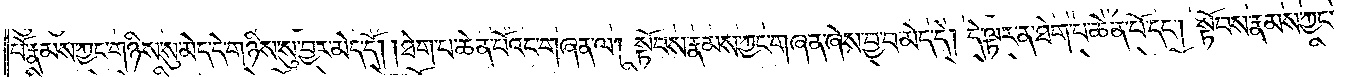པོ་རྣམས་ཀྱང་གཉིས་སུ་མེད་དེ་གཉིས་སུ་བྱར་མེད་དོ། །ཐེག་པ་ཆེན་པོའང་གཞན་ལ། སྟོབས་རྣམས་ཀྱང་གཞན་ཞེས་བྱ་བ་མེད་དེ། དེ་ལྟར་ན་ཐེག་པ་ཆེན་པོ་དང༌། སྟོབས་རྣམས་ཀྱང་
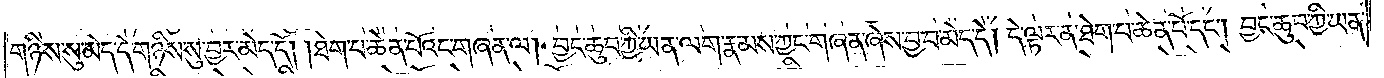གཉིས་སུ་མེད་དེ་གཉིས་སུ་བྱར་མེད་དོ། །ཐེག་པ་ཆེན་པོའང་གཞན་ལ། བྱང་ཆུབ་ཀྱི་ཡན་ལག་རྣམས་ཀྱང་གཞན་ཞེས་བྱ་བ་མེད་དེ། དེ་ལྟར་ན་ཐེག་པ་ཆེན་པོ་དང༌། བྱང་ཆུབ་ཀྱི་ཡན་
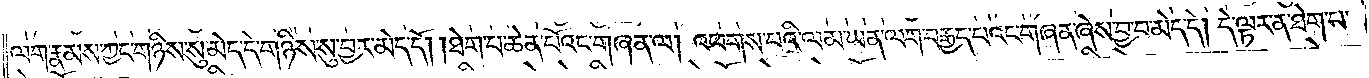ལག་རྣམས་ཀྱང་གཉིས་སུ་མེད་དེ་གཉིས་སུ་བྱར་མེད་དོ། །ཐེག་པ་ཆེན་པོའང་གཞན་ལ། འཕགས་པའི་ལམ་ཡན་ལག་བརྒྱད་པའང་གཞན་ཞེས་བྱ་བ་མེད་དེ། དེ་ལྟར་ན་ཐེག་པ་
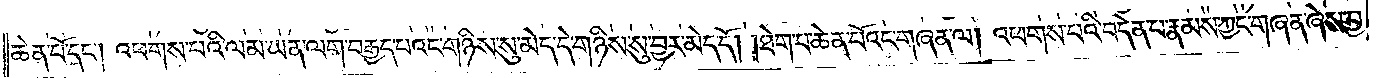ཆེན་པོ་དང༌། འཕགས་པའི་ལམ་ཡན་ལག་བརྒྱད་པའང་གཉིས་སུ་མེད་དེ་གཉིས་སུ་བྱར་མེད་དོ། །ཐེག་པ་ཆེན་པོའང་གཞན་ལ། འཕགས་པའི་བདེན་པ་རྣམས་ཀྱང་གཞན་ཞེས་བྱ་
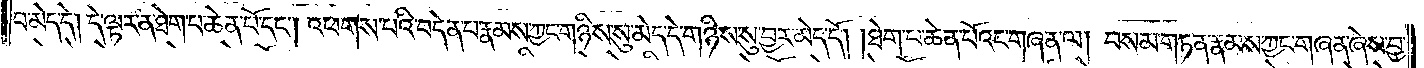བ་མེད་དེ། དེ་ལྟར་ན་ཐེག་པ་ཆེན་པོ་དང༌། འཕགས་པའི་བདེན་པ་རྣམས་ཀྱང་གཉིས་སུ་མེད་དེ་གཉིས་སུ་བྱར་མེད་དོ། །ཐེག་པ་ཆེན་པོའང་གཞན་ལ། བསམ་གཏན་རྣམས་ཀྱང་གཞན་ཞེས་བྱ་
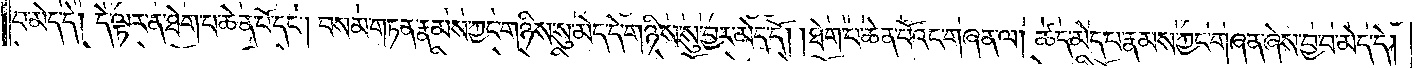བ་མེད་དེ། དེ་ལྟར་ན་ཐེག་པ་ཆེན་པོ་དང༌། བསམ་གཏན་རྣམས་ཀྱང་གཉིས་སུ་མེད་དེ་གཉིས་སུ་བྱར་མེད་དོ། །ཐེག་པ་ཆེན་པོའང་གཞན་ལ། ཚད་མེད་པ་རྣམས་ཀྱང་གཞན་ཞེས་བྱ་བ་མེད་དེ།
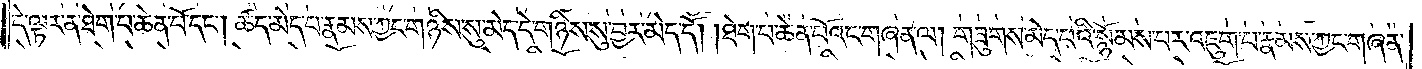དེ་ལྟར་ན་ཐེག་པ་ཆེན་པོ་དང༌། ཚད་མེད་པ་རྣམས་ཀྱང་གཉིས་སུ་མེད་དེ་གཉིས་སུ་བྱར་མེད་དོ། །ཐེག་པ་ཆེན་པོའང་གཞན་ལ། གཟུགས་མེད་པའི་སྙོམས་པར་འཇུག་པ་རྣམས་ཀྱང་གཞན་
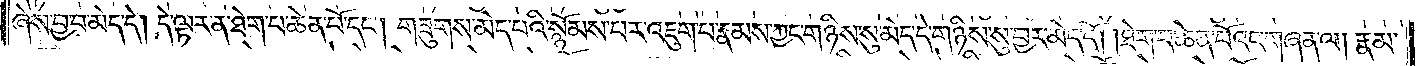ཞེས་བྱ་བ་མེད་དེ། དེ་ལྟར་ན་ཐེག་པ་ཆེན་པོ་དང༌། གཟུགས་མེད་པའི་སྙོམས་པར་འཇུག་པ་རྣམས་ཀྱང་གཉིས་སུ་མེད་དེ་གཉིས་སུ་བྱར་མེད་དོ། །ཐེག་པ་ཆེན་པོའང་གཞན་ལ། རྣམ་
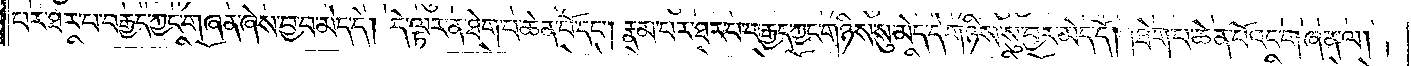པར་ཐར་པ་བརྒྱད་ཀྱང་གཞན་ཞེས་བྱ་བ་མེད་དེ། དེ་ལྟར་ན་ཐེག་པ་ཆེན་པོ་དང༌། རྣམ་པར་ཐར་པ་བརྒྱད་ཀྱང་གཉིས་སུ་མེད་དེ་གཉིས་སུ་བྱར་མེད་དོ། །ཐེག་པ་ཆེན་པོའང་གཞན་ལ།
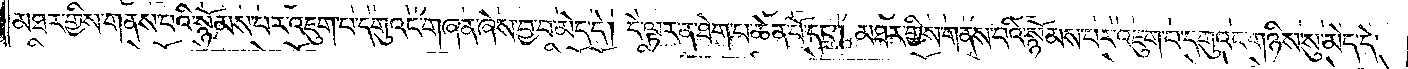མཐར་གྱིས་གནས་པའི་སྙོམས་པར་འཇུག་པ་དགུའང་གཞན་ཞེས་བྱ་བ་མེད་དེ། དེ་ལྟར་ན་ཐེག་པ་ཆེན་པོ་དང༌། མཐར་གྱིས་གནས་པའི་སྙོམས་པར་འཇུག་པ་དགུའང་གཉིས་སུ་མེད་དེ་
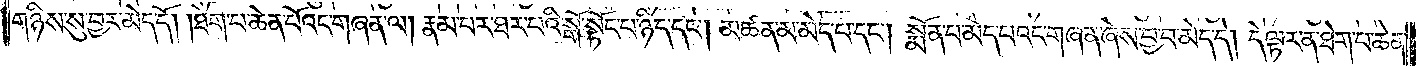གཉིས་སུ་བྱར་མེད་དོ། །ཐེག་པ་ཆེན་པོའང་གཞན་ལ། རྣམ་པར་ཐར་པའི་སྒོ་སྟོང་པ་ཉིད་དང༌། མཚན་མ་མེད་པ་དང༌། སྨོན་པ་མེད་པའང་གཞན་ཞེས་བྱ་བ་མེད་དེ། དེ་ལྟར་ན་ཐེག་པ་ཆེན་
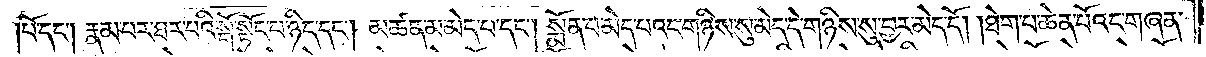པོ་དང༌། རྣམ་པར་ཐར་པའི་སྒོ་སྟོང་པ་ཉིད་དང༌། མཚན་མ་མེད་པ་དང༌། སྨོན་པ་མེད་པའང་གཉིས་སུ་མེད་དེ་གཉིས་སུ་བྱར་མེད་དོ། །ཐེག་པ་ཆེན་པོའང་གཞན་
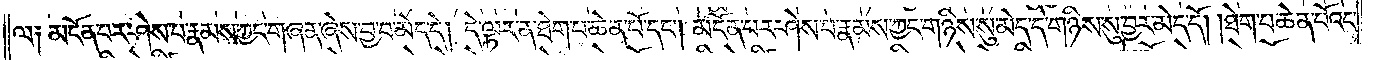ལ། མངོན་པར་ཤེས་པ་རྣམས་ཀྱང་གཞན་ཞེས་བྱ་བ་མེད་དེ། དེ་ལྟར་ན་ཐེག་པ་ཆེན་པོ་དང༌། མངོན་པར་ཤེས་པ་རྣམས་ཀྱང་གཉིས་སུ་མེད་དེ་གཉིས་སུ་བྱར་མེད་དོ། །ཐེག་པ་ཆེན་པོའང་
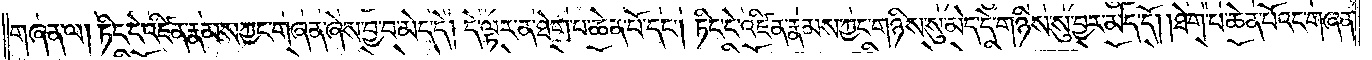གཞན་ལ། ཏིང་ངེ་འཛིན་རྣམས་ཀྱང་གཞན་ཞེས་བྱ་བ་མེད་དེ། དེ་ལྟར་ན་ཐེག་པ་ཆེན་པོ་དང༌། ཏིང་ངེ་འཛིན་རྣམས་ཀྱང་གཉིས་སུ་མེད་དེ་གཉིས་སུ་བྱར་མེད་དོ། །ཐེག་པ་ཆེན་པོའང་གཞན་
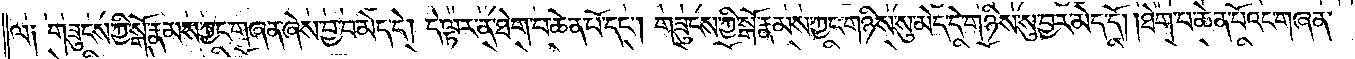ལ༑ གཟུངས་ཀྱི་སྒོ་རྣམས་ཀྱང་གཞན་ཞེས་བྱ་བ་མེད་དེ། དེ་ལྟར་ན་ཐེག་པ་ཆེན་པོ་དང༌། གཟུངས་ཀྱི་སྒོ་རྣམས་ཀྱང་གཉིས་སུ་མེད་དེ་གཉིས་སུ་བྱར་མེད་དོ། །ཐེག་པ་ཆེན་པོའང་གཞན་
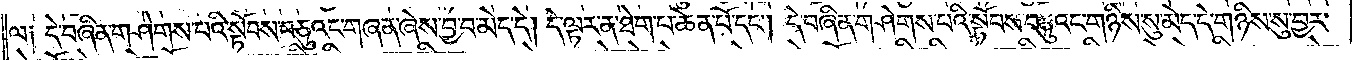ལ༑ དེ་བཞིན་གཤེགས་པའི་སྟོབས་བཅུའང་གཞན་ཞེས་བྱ་བ་མེད་དེ། དེ་ལྟར་ན་ཐེག་པ་ཆེན་པོ་དང༌། དེ་བཞིན་གཤེགས་པའི་སྟོབས་བཅུའང་གཉིས་སུ་མེད་དེ་གཉིས་སུ་བྱར་
